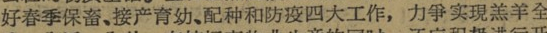好春季保畜、接产育幼、配种和防疫四大工作，力爭实現羔羊全
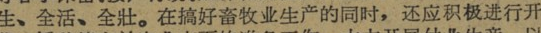生、全活、全壯。在搞好畜牧业生产的同时，还应积极进行开
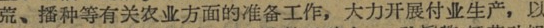荒、播种等有关农业方面的准备工作，大力开展付业生产，以
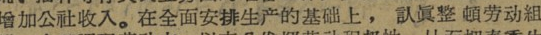增加公社收入。在全面安排生产的基础上，认眞整頓劳动組
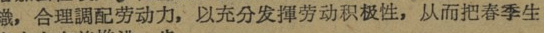織，合理調配劳动力，以充分发揮劳动积极性，从而把春季生
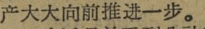产大大向前推进一步。
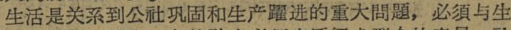生活是关系到公社巩固和生产躍进的重大問題，必須与生
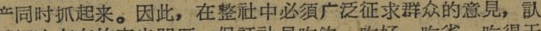产同时抓起来。因此，在整社中必須广泛征求群众的意見，认
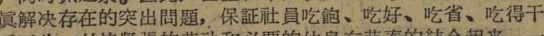眞解决存在的突出問題，保証社員吃饱、吃好、吃省、吃得干
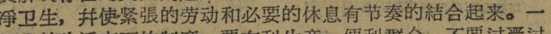凈卫生，并使紧張的劳动和必要的休息有节奏的結合起来。一
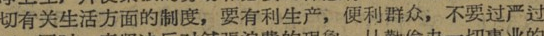切有关生活方面的制度，要有利生产，便利群众，不要过严过
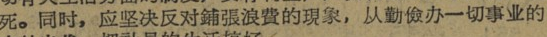死。同时，应坚决反对铺張浪费的現象，从勤儉办一切事业的
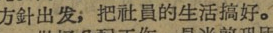方針出发；把社員的生活搞好。
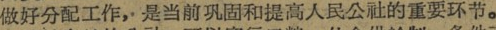做好分配工作，是当前巩固和提高人民公社的重要环节。
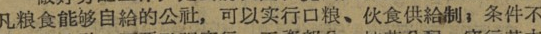凡粮食能够自給的公社，可以实行口粮、伙食供給制；条件不
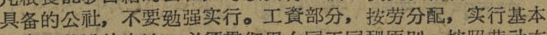具备的公社，不要勉强实行。工資部分，按劳分配，实行基本
